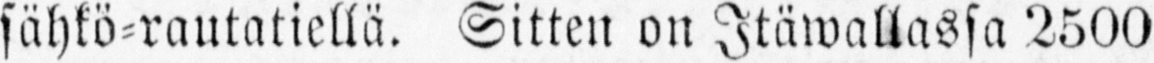sähkö-rautatiellä. Sitten on Itäwallassa 2500
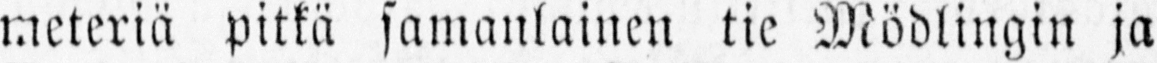meteriä pitkä samanlainen tie Mödlingin ja
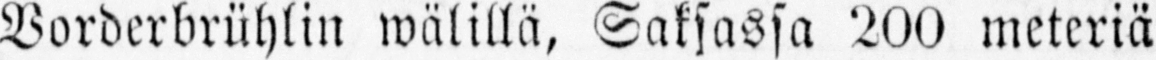Vorderbrühlin wälillä, Saksassa 200 meteriä
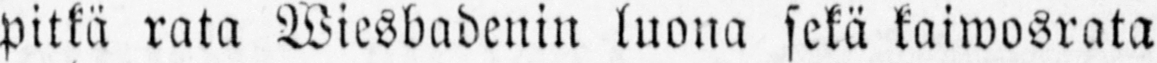pitkä rata Wiesbadenin luona sekä kaiwosrata
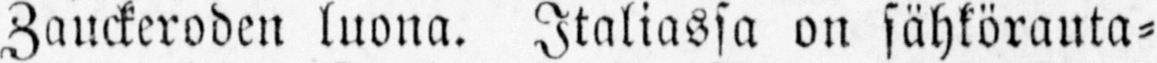Zauckeroden luona. Italiassa on sähkörauta-
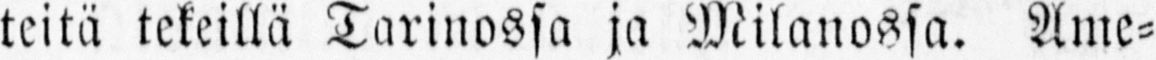teitä tekeillä Torinossa ja Milanossa. Ame-
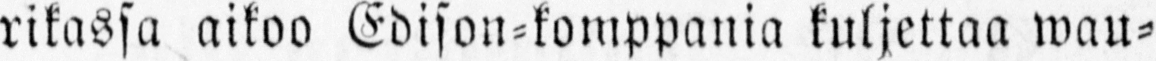rikassa aikoo Edison-komppania kuljettaa wau-
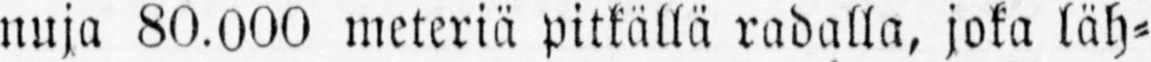nuja 80.000 meteriä pitkällä radalla, joka läh-
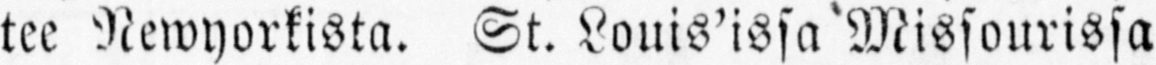tee Newyorkista. St. Louis'issa Missourissa
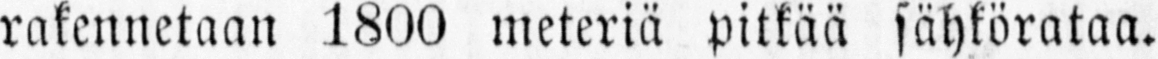rakennetaan 1800 meteriä pitkää sähkörataa.
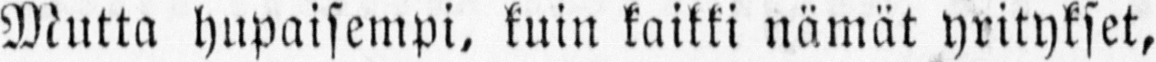Mutta hupaisempi, kuin kaikki nämät yritykset,
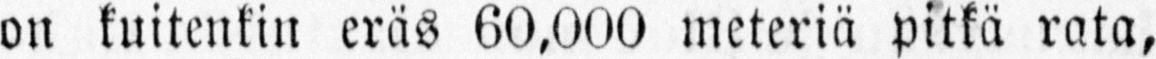on kuitenkin eräs 60,000 meteriä pitkä rata,
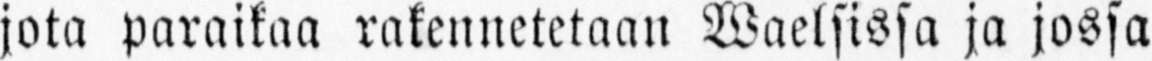jota paraikaa rakennetetaan Waelsissa ja jossa
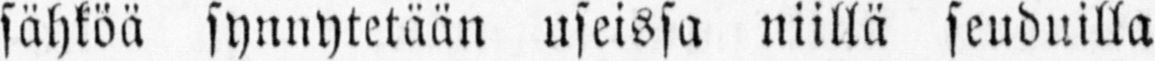sähköä synnytetään useissa niillä seuduilla
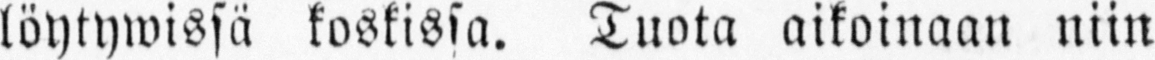löytywissä koskissa. Tuota aikoinaan niin
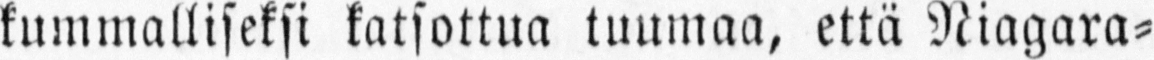kummalliseksi katsottua tuumaa, että Niagara-
